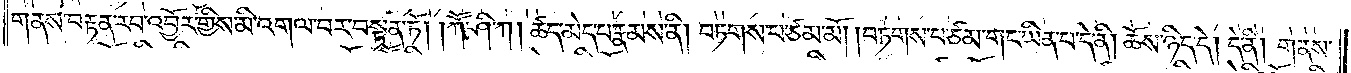གནས་བརྟན་རབ་འབྱོར་གྱིས་མི་འགལ་བར་བསྟན་ཏོ། །ཀཽ་ཤི་ཀ །ཚད་མེད་པ་རྣམས་ནི། བཏགས་པ་ཙམ་མོ། །བཏགས་པ་ཙམ་གང་ཡིན་པ་དེ་ནི། ཆོས་ཉིད་དེ། དེ་ནི། གནས་
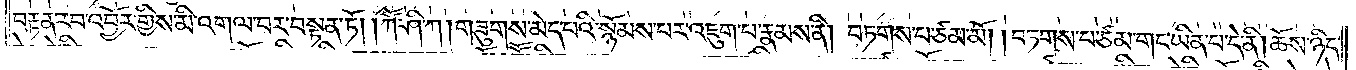བརྟན་རབ་འབྱོར་གྱིས་མི་འགལ་བར་བསྟན་ཏོ། །ཀཽ་ཤི་ཀ །གཟུགས་མེད་པའི་སྙོམས་པར་འཇུག་པ་རྣམས་ནི། བཏགས་པ་ཙམ་མོ། །བཏགས་པ་ཙམ་གང་ཡིན་པ་དེ་ནི། ཆོས་ཉིད་
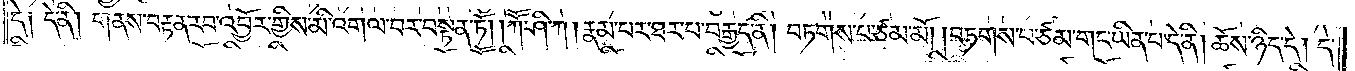དེ༑ དེ་ནི། གནས་བརྟན་རབ་འབྱོར་གྱིས་མི་འགལ་བར་བསྟན་ཏོ། །ཀཽ་ཤི་ཀ །རྣམ་པར་ཐར་པ་བརྒྱད་ནི། བཏགས་པ་ཙམ་མོ། །བཏགས་པ་ཙམ་གང་ཡིན་པ་དེ་ནི། ཆོས་ཉིད་དེ། དེ་
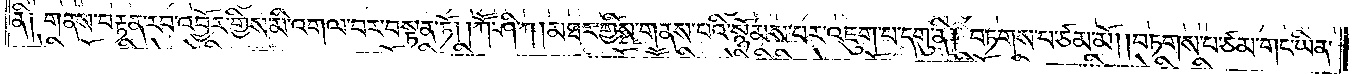ནི། གནས་བརྟན་རབ་འབྱོར་གྱིས་མི་འགལ་བར་བསྟན་ཏོ། །ཀཽ་ཤི་ཀ །མཐར་གྱིས་གནས་པའི་སྙོམས་པར་འཇུག་པ་དགུ་ནི། བཏགས་པ་ཙམ་མོ། །བཏགས་པ་ཙམ་གང་ཡིན་
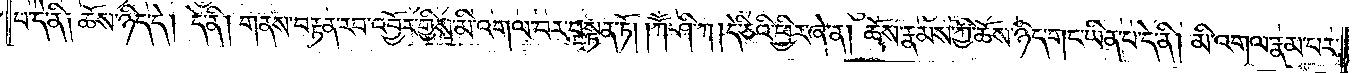པ་དེ་ནི། ཆོས་ཉིད་དེ། དེ་ནི། གནས་བརྟན་རབ་འབྱོར་གྱིས་མི་འགལ་བར་བསྟན་ཏོ། །ཀཽ་ཤི་ཀ །དེ་ཅིའི་ཕྱིར་ཞེ་ན། ཆོས་རྣམས་ཀྱི་ཆོས་ཉིད་གང་ཡིན་པ་དེ་ནི། མི་འགལ་རྣམ་པར་
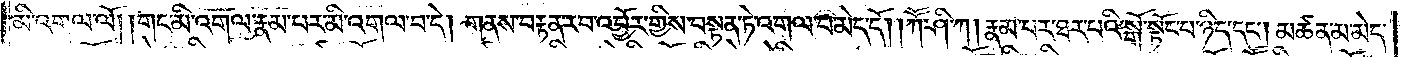མི་འགལ་ལོ། །གང་མི་འགལ་རྣམ་པར་མི་འགལ་བ་དེ། གནས་བརྟན་རབ་འབྱོར་གྱིས་བསྟན་ཏེ་འགལ་བ་མེད་དོ། །ཀཽ་ཤི་ཀ །རྣམ་པར་ཐར་པའི་སྒོ་སྟོང་པ་ཉིད་དང༌། མཚན་མ་མེད་
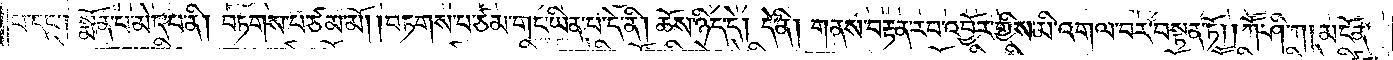པ་དང༌། སྨོན་པ་མེད་པ་ནི། བཏགས་པ་ཙམ་མོ། །བཏགས་པ་ཙམ་གང་ཡིན་པ་དེ་ནི། ཆོས་ཉིད་དེ། དེ་ནི། གནས་བརྟན་རབ་འབྱོར་གྱིས་མི་འགལ་བར་བསྟན་ཏོ། །ཀཽ་ཤི་ཀ །མངོན་
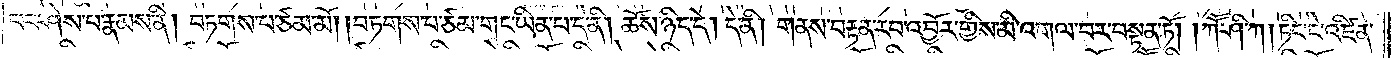པར་ཤེས་པ་རྣམས་ནི། བཏགས་པ་ཙམ་མོ། །བཏགས་པ་ཙམ་གང་ཡིན་པ་དེ་ནི། ཆོས་ཉིད་དེ། དེ་ནི། གནས་བརྟན་རབ་འབྱོར་གྱིས་མི་འགལ་བར་བསྟན་ཏོ། །ཀཽ་ཤི་ཀ །ཏིང་ངེ་འཛིན་
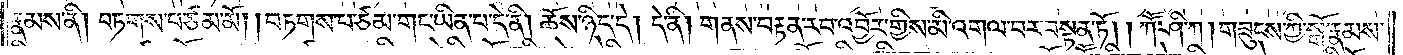རྣམས་ནི། བཏགས་པ་ཙམ་མོ། །བཏགས་པ་ཙམ་གང་ཡིན་པ་དེ་ནི། ཆོས་ཉིད་དེ། དེ་ནི། གནས་བརྟན་རབ་འབྱོར་གྱིས་མི་འགལ་བར་བསྟན་ཏོ། །ཀཽ་ཤི་ཀ །གཟུངས་ཀྱི་སྒོ་རྣམས་
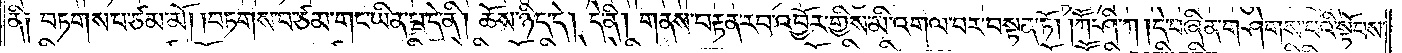ནི༑ བཏགས་པ་ཙམ་མོ། །བཏགས་པ་ཙམ་གང་ཡིན་པ་དེ་ནི། ཆོས་ཉིད་དེ། དེ་ནི། གནས་བརྟན་རབ་འབྱོར་གྱིས་མི་འགལ་བར་བསྟན་ཏོ། །ཀཽ་ཤི་ཀ །དེ་བཞིན་གཤེགས་པའི་སྟོབས་
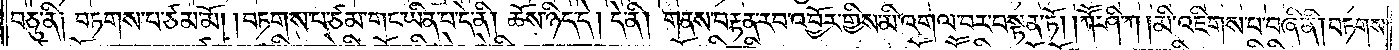བཅུ་ནི། བཏགས་པ་ཙམ་མོ། །བཏགས་པ་ཙམ་གང་ཡིན་པ་དེ་ནི། ཆོས་ཉིད་དེ། དེ་ནི། གནས་བརྟན་རབ་འབྱོར་གྱིས་མི་འགལ་བར་བསྟན་ཏོ། །ཀཽ་ཤི་ཀ །མི་འཇིགས་པ་བཞི་ནི། བཏགས་
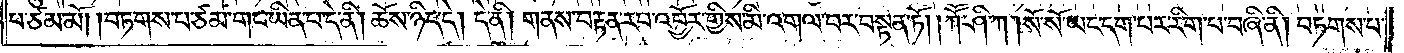པ་ཙམ་མོ། །བཏགས་པ་ཙམ་གང་ཡིན་པ་དེ་ནི། ཆོས་ཉིད་དེ། དེ་ནི། གནས་བརྟན་རབ་འབྱོར་གྱིས་མི་འགལ་བར་བསྟན་ཏོ། །ཀཽ་ཤི་ཀ །སོ་སོ་ཡང་དག་པར་རིག་པ་བཞི་ནི། བཏགས་པ་
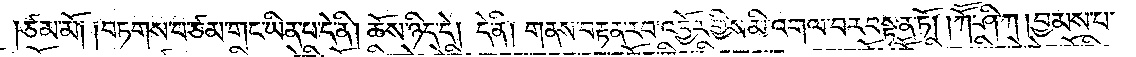ཙམ་མོ། །བཏགས་པ་ཙམ་གང་ཡིན་པ་དེ་ནི། ཆོས་ཉིད་དེ། དེ་ནི། གནས་བརྟན་རབ་འབྱོར་གྱིས་མི་འགལ་བར་བསྟན་ཏོ། ཀཽ་ཤི་ཀ །བྱམས་པ་
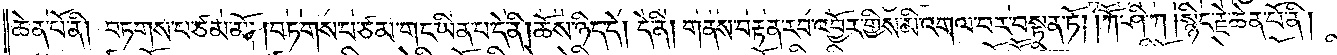ཆེན་པོ་ནི། བཏགས་པ་ཙམ་མོ། །བཏགས་པ་ཙམ་གང་ཡིན་པ་དེ་ནི། ཆོས་ཉིད་དེ། དེ་ནི། གནས་བརྟན་རབ་འབྱོར་གྱིས་མི་འགལ་བར་བསྟན་ཏོ། །ཀཽ་ཤི་ཀ །སྙིང་རྗེ་ཆེན་པོ་ནི།
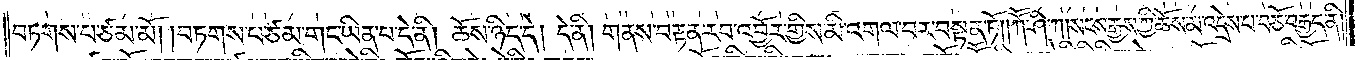བཏགས་པ་ཙམ་མོ། བཏགས་པ་ཙམ་གང་ཡིན་པ་དེ་ནི། ཆོས་ཉིད་དེ། དེ་ནི། གནས་བརྟན་རབ་འབྱོར་གྱིས་མི་འགལ་བར་བསྟན་ཏོ། །ཀཽ་ཤི་ཀ །སངས་རྒྱས་ཀྱི་ཆོས་མ་འདྲེས་པ་བཅོ་བརྒྱད་ནི།
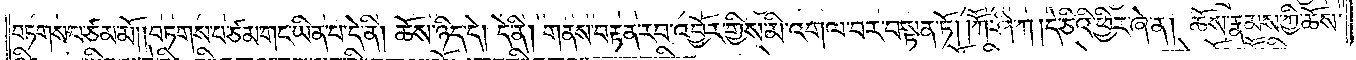བཏགས་པ་ཙམ་མོ། །བཏགས་པ་ཙམ་གང་ཡིན་པ་དེ་ནི། ཆོས་ཉིད་དེ། དེ་ནི། གནས་བརྟན་རབ་འབྱོར་གྱིས་མི་འགལ་བར་བསྟན་ཏོ། །ཀཽ་ཤི་ཀ །དེ་ཅིའི་ཕྱིར་ཞེ་ན། ཆོས་རྣམས་ཀྱི་ཆོས་
